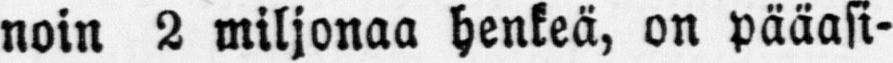noin 2 miljonaa henkeä, on pääasi-
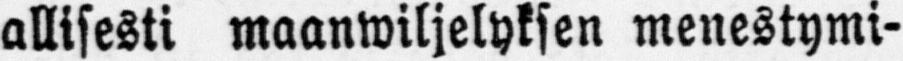allisesti maanwiljelyksen menestymi-
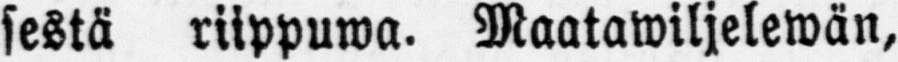sestä riippuwa. Maatawiljelewän,
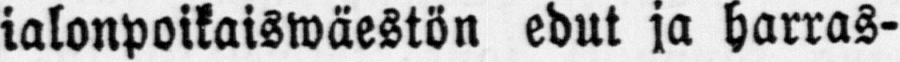ialonpoikaiswäestön edut ja harras-
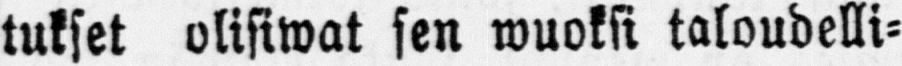tukset olisiwat sen wuoksi taloudelli-
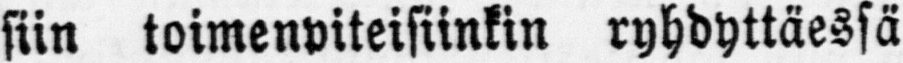siin toimenpiteisiinkin ryhdyttäessä
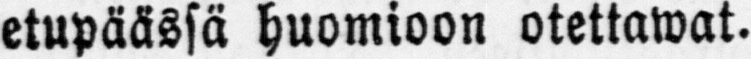etupäässä huomioon otettawat.
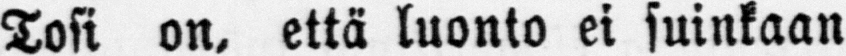Tosi on, että luonto ei suinkaan
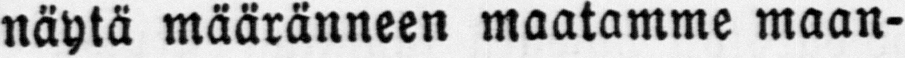näytä määränneen maatamme maan-
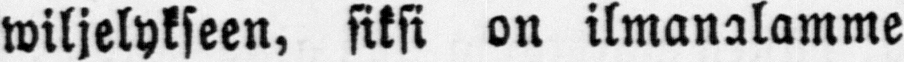wiljelykseen, siksi on ilmanalamme
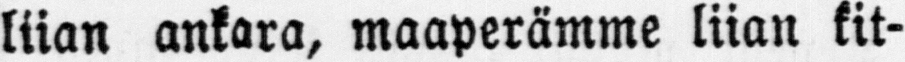liian ankara, maaperämme liian kit-
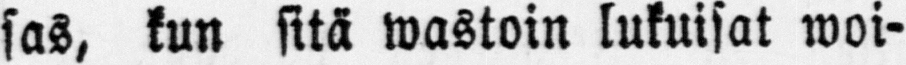sas, kun sitä wastoin lukuisat woi-
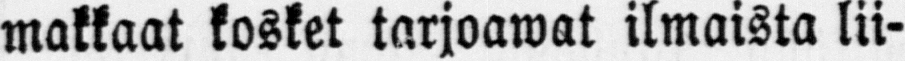makkaat kosket tarjoawat ilmaista lii-
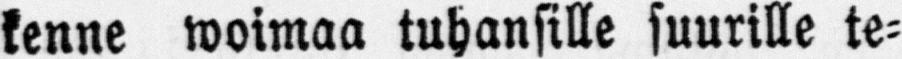kenne woimaa tuhansille suurille te-
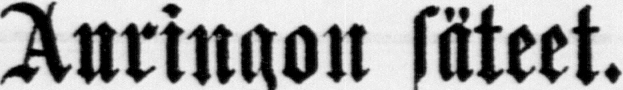Auringon säteet.
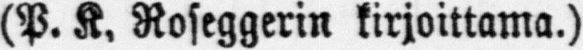(P. K, Roseggerin kirjoittama.)
